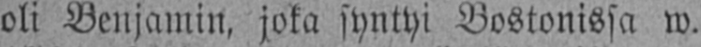oli Benjamin, joka syntyi Bostonissa w.
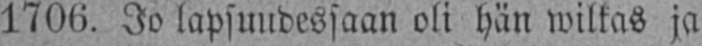1706. Jo lapsuudessaan oli hän wilkas ja
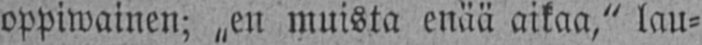oppiwainen; „en muista enää aikaa," lau-
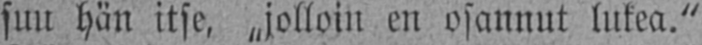sun hän itse, „jolloin en osannut lukea."
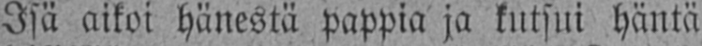Isä aikoi hänestä pappia ja kutsui häntä
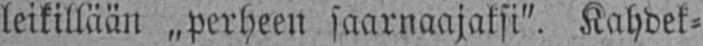leikillään „perheen saarnaajaksi". Kahdek-
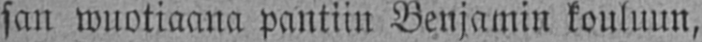san wuotiaana pantiin Benjamin kouluun,
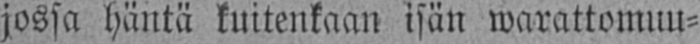jossa häntä kuitenkaan isän warattomuu-
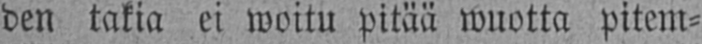den takia ei woitu pitää wuotta pitem-
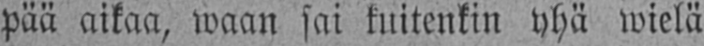pää aikaa, waan sai kuitenkin yhä wielä
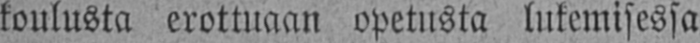koulusta erottuaan opetusta lukemisessa
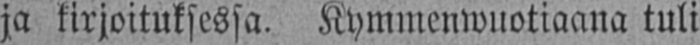ja kirjoituksessa. Kymmenwuotiaana tuli
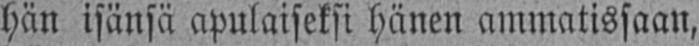hän isänsä apulaiseksi hänen ammatissaan,
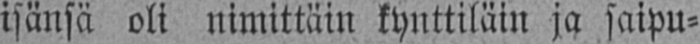isänsä oli nimittäin kynttiläin ja saipu-
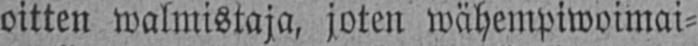oitten walmistaja, joten wähempiwomai-
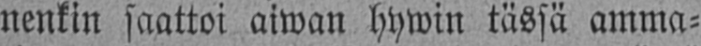nenkin saattoi aiwan hywin tässä amma-
